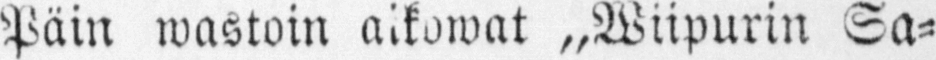Päin wastoin aikowat „Wiipurin Sa-
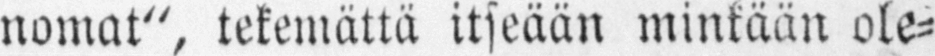nomat", tekemättä itseään minkään ole-
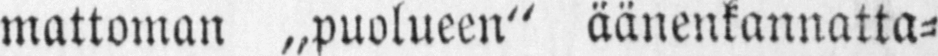mattoman „puolueen" äänenkannatta-
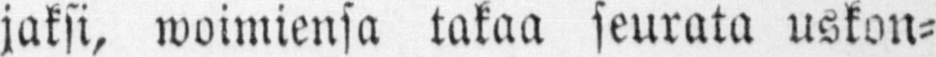jaksi, woimiensa takaa seurata uskon-
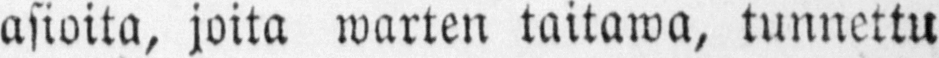asioita, joita warten taitawa, tunnettu
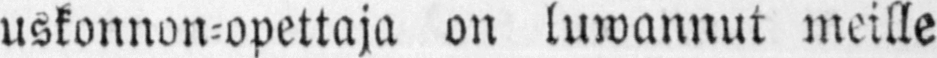uskonnon-opettaja on luwannut meille
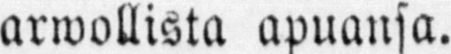arwollista apuansa.
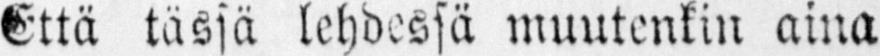Että tässä lehdessä muutenkin aina
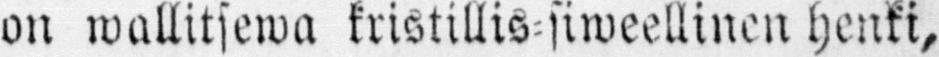on wallitsewa kristillis-siweellinen henki,
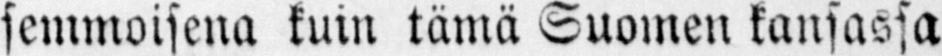semmoisena kuin tämä Suomen kansassa
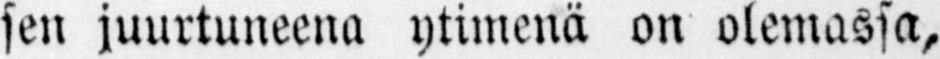sen juurtuneena ytimenä on olemassa,
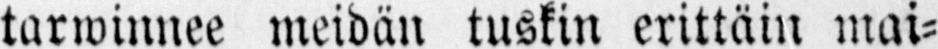tarwinnee meidän tuskin erittäin mai-
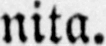nita.
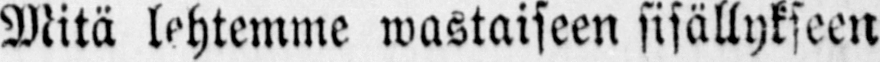Mitä lehtemme wastaiseen sisällykseen
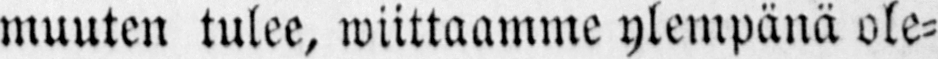muuten tulee, wiittaamme ylempänä ole-
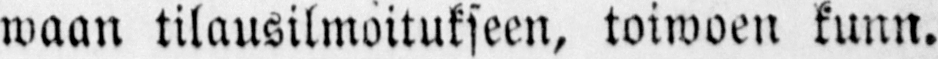waan tilausilmoitukseen, toiwoen kunn.
